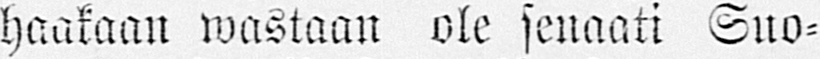haakaan wastaan ole senaati Suo-
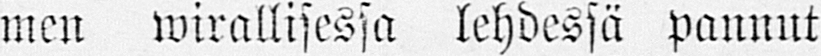men wirallisessa lehdessä pannut
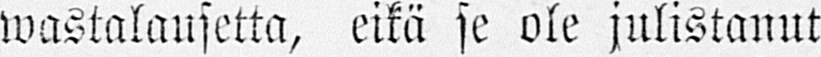wastalausetta, eikä se ole julistanut
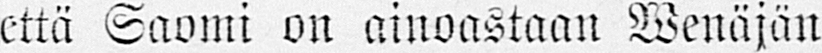että Saomi on ainoastaan Wenäjän
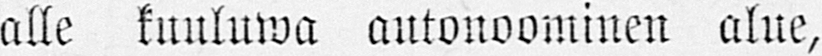alle kuuluwa autonoominen alue,
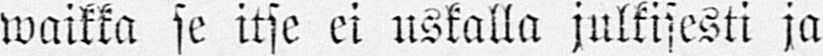waikka se itse ei uskalla julkisesti ja
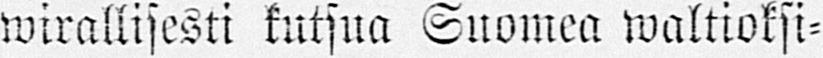wirallisesti kutsua Suomea waltioksi-
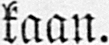kaan.
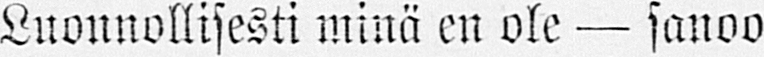Luonnollisesti minä en ole — sanoo
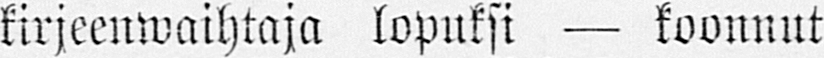kirjeenwaihtaja lopuksi — koonnut
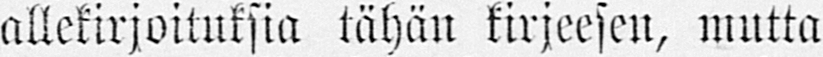allekirjoituksia tähän kirjeesen, mutta
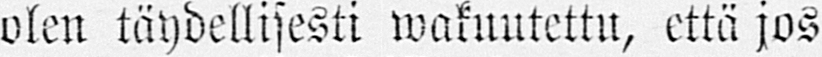olen täydellisesti wakuutettu, että jos
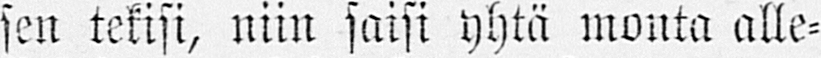sen tekisi, niin saisi yhtä monta alle-
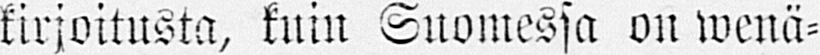kirjoitusta, kuin Suomessa on wenä-
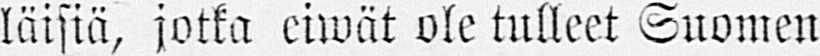läisiä, jotka eiwät ole tulleet Suomen
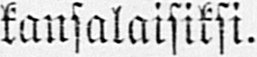kansalaisiksi.
